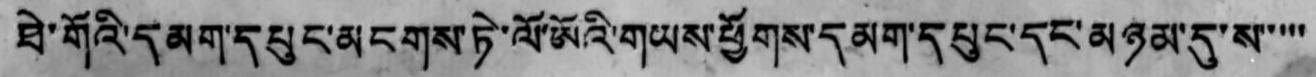ཐེ་གོའི་དམག་དཔུང་མངགས་ཏེ་ལོ་ཨོའི་གཡས་ཕྱོགས་དམག་དཔུང་དང་མཉམ་དུ་ས་་་་་
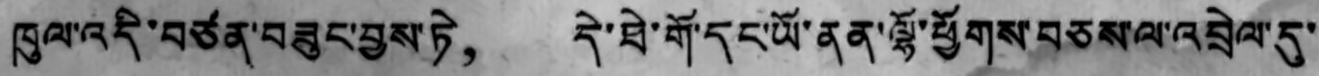ཁུལ་འདི་བཙན་བཟུང་བྱས་ཏེ， དེ་ཐེ་གོ་དང་ཡོ་ནན་ལྷོ་ཕྱོགས་བཅས་ལ་འབྲེལ་དུ་
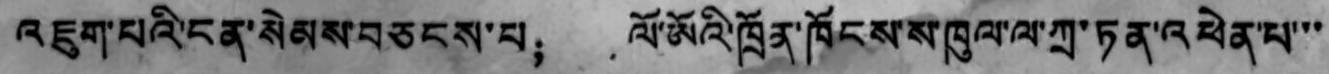འཇུག་པའི་ངན་སེམས་བཅངས་པ； ལོ་ཨོའི་ཁྲོན་ཁོངས་ས་ཁུལ་ལ་ཀྲ་ཏན་འཕེན་པ་་་
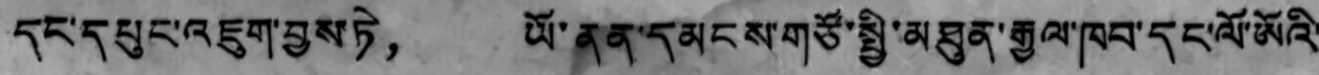དང་དཔུང་འཇུག་བྱས་ཏེ， ཡོ་ནན་དམངས་གཙོ་སྤྱི་མཐུན་རྒྱལ་ཁབ་དང་ལོ་ཨོའི་
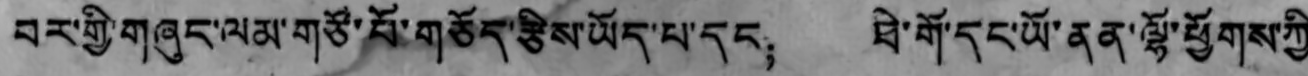བར་གྱི་གཞུང་ལམ་གཙོ་བོ་གཅོད་རྩིས་ཡོད་པ་དང； ཐེ་གོ་དང་ཡོ་ནན་ལྷོ་ཕྱོགས་ཀྱི་
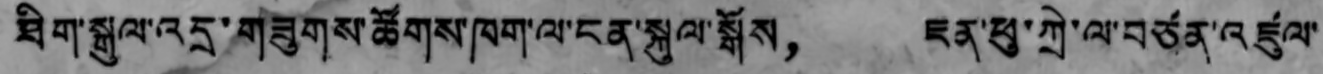ཐིག་སྐུལ་འདྲ་གཟུགས་ཚོགས་ཁག་ལ་ངན་སྐུལ་སྒོས， རན་ཕུ་ཀྲེ་ལ་བཙན་འཛུལ་
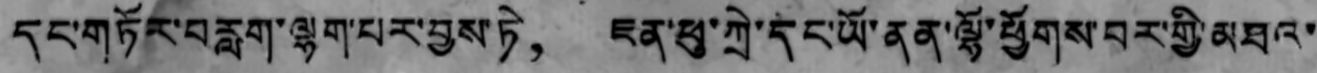དང་གཏོང་བརླག་ལྷག་པར་བྱས་ཏེ， ཇན་ཕུ་ཀྲེ་དང་ཡོ་ནན་ལྷོ་ཕྱོགས་བར་གྱི་མཐའ་
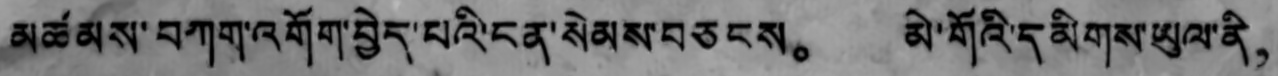མཚམས་བཀག་འགོག་བྱེད་པའི་ངན་སེམས་བཅངས。 མེ་གོའི་དམིགས་ཡུལ་ནི་
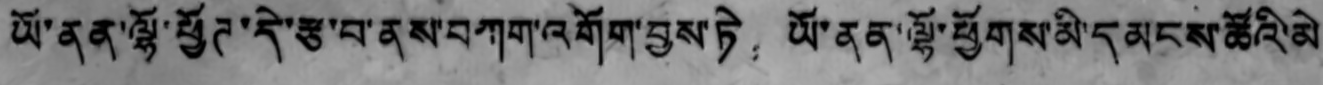ཡོ་ནན་ལྷོ་ཕྱོཊ་དེ་རྩ་བ་ནས་བཀག་འགོག་བྱས་ཏེ： ཡོ་ནན་ལྷོ་ཕྱོགས་མི་དམངས་ཚོའི་མེ
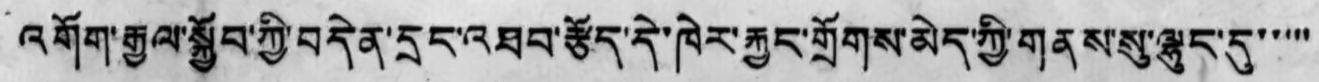འགོག་རྒྱལ་སྐྱོབ་ཀྱི་བདེན་དྲང་འཐབ་རྩོད་དེ་ཁེར་རྐྱང་གྲོགས་མེད་ཀྱི་གནས་སུ་ལྷུད་དུ་་་་་
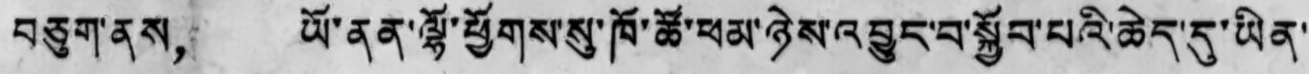བཅུག་ནས， ཡོ་ནན་ལྷོ་ཕྱོགས་སུ་ཁོ་ཚོ་ཕམ་ཉེས་འབྱུང་བ་སྐྱོབ་པའི་ཆེད་དུ་ཡིན་
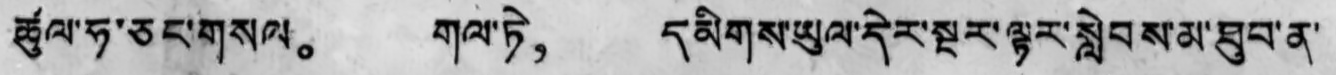ཚུལ་ཧ་ཅང་གསལ。 གལ་ཏེ， དམིགས་ཡུལ་དེར་སྔར་ལྟར་སླེབས་མ་ཐུབ་ན་
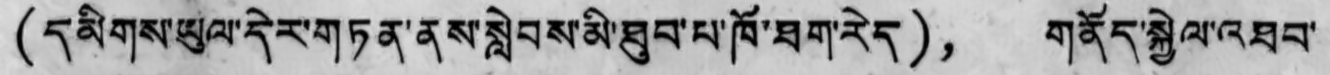(དམིགས་ཡུལ་དེར་གཏན་ནས་སླེབས་མི་ཐུབ་པ་ཁོ་ཐག་རེད)， གནོད་སྐྱེལ་འཐབ་
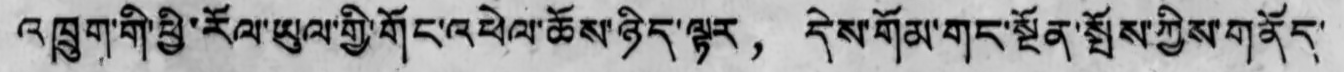འཁྲུག་གི་ཕྱི་རོལ་ཡུལ་གྱི་གོང་འཕེལ་ཆོས་ཉིད་ལྟར， དེས་གོམ་གང་སྔོན་སྤོས་ཀྱིས་གནོད་
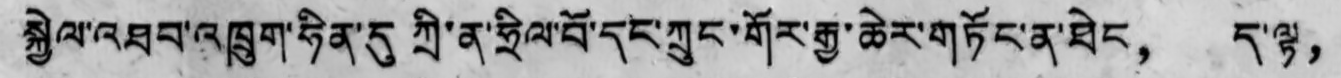སྐྱེལ་འཐབ་འཁྲུག་ཧིན་དུ ཀྲི་ན་ཧྲིལ་བོ་དང་ཀྲུང་གོར་རྒྱ་ཆེར་གཏོང་ན་ཐེང， ད་ལྟ，
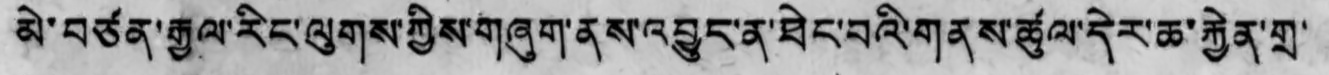མེ་བཙན་རྒྱལ་རིང་ལུགས་ཀྱིས་གཞུག་ནས་འབྱུང་ན་ཐེང་བའི་གནས་ཚུལ་དེར་ཆ་རྐྱེན་གྲ་
